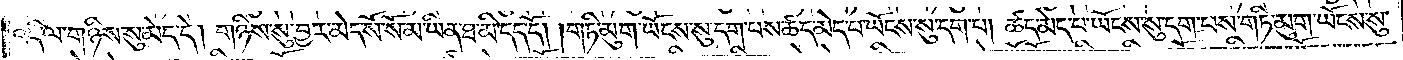འདི་ལ་གཉིས་སུ་མེད་དེ། གཉིས་སུ་བྱར་མེད་སོ་སོ་མ་ཡིན་ཐ་མི་དད་དོ། །གཏི་མུག་ཡོངས་སུ་དག་པས་ཚད་མེད་པ་ཡོངས་སུ་དག་པ། ཚད་མེད་པ་ཡོངས་སུ་དག་པས་གཏི་མུག་ཡོངས་སུ་
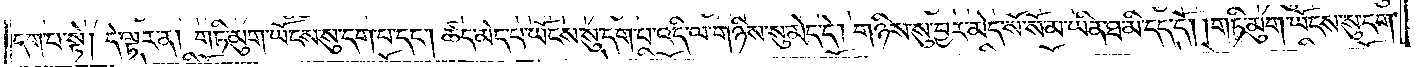དག་པ་སྟེ། དེ་ལྟར་ན། གཏི་མུག་ཡོངས་སུ་དག་པ་དང༌། ཚད་མེད་པ་ཡོངས་སུ་དག་པ་འདི་ལ་གཉིས་སུ་མེད་དེ། གཉིས་སུ་བྱར་མེད་སོ་སོ་མ་ཡིན་ཐ་མི་དད་དོ། །གཏི་མུག་ཡོངས་སུ་དག་
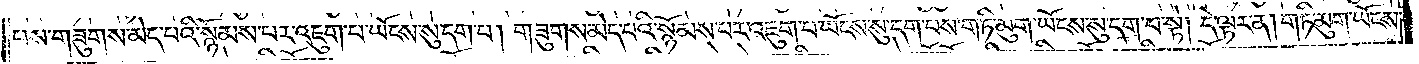པས་གཟུགས་མེད་པའི་སྙོམས་པར་འཇུག་པ་ཡོངས་སུ་དག་པ། གཟུགས་མེད་པའི་སྙོམས་པར་འཇུག་པ་ཡོངས་སུ་དག་པས་གཏི་མུག་ཡོངས་སུ་དག་པ་སྟེ། དེ་ལྟར་ན། གཏི་མུག་ཡོངས་
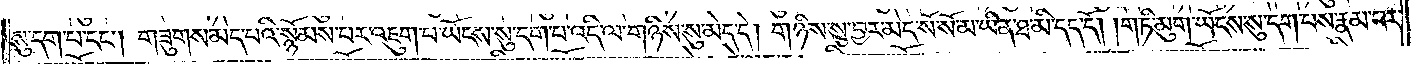སུ་དག་པ་དང༌། གཟུགས་མེད་པའི་སྙོམས་པར་འཇུག་པ་ཡོངས་སུ་དག་པ་འདི་ལ་གཉིས་སུ་མེད་དེ། གཉིས་སུ་བྱར་མེད་སོ་སོ་མ་ཡིན་ཐ་མི་དད་དོ། །གཏི་མུག་ཡོངས་སུ་དག་པས་རྣམ་པར་
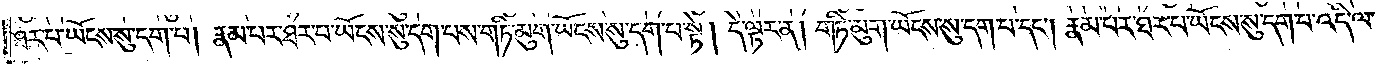ཐར་པ་ཡོངས་སུ་དག་པ། རྣམ་པར་ཐར་པ་ཡོངས་སུ་དག་པས་གཏི་མུག་ཡོངས་སུ་དག་པ་སྟེ། དེ་ལྟར་ན། གཏི་མུག་ཡོངས་སུ་དག་པ་དང༌། རྣམ་པར་ཐར་པ་ཡོངས་སུ་དག་པ་འདི་ལ་
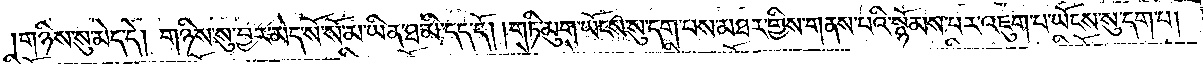གཉིས་སུ་མེད་དེ། གཉིས་སུ་བྱར་མེད་སོ་སོ་མ་ཡིན་ཐ་མི་དད་དོ། །གཏི་མུག་ཡོངས་སུ་དག་པས་མཐར་གྱིས་གནས་པའི་སྙོམས་པར་འཇུག་པ་ཡོངས་སུ་དག་པ།
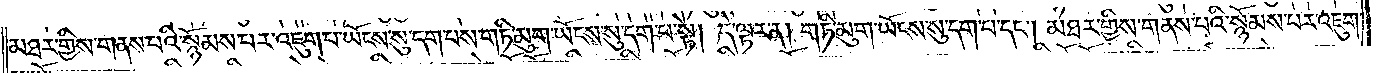མཐར་གྱིས་གནས་པའི་སྙོམས་པར་འཇུག་པ་ཡོངས་སུ་དག་པས་གཏི་མུག་ཡོངས་སུ་དག་པ་སྟེ། དེ་ལྟར་ན། གཏི་མུག་ཡོངས་སུ་དག་པ་དང༌། མཐར་གྱིས་གནས་པའི་སྙོམས་པར་འཇུག་
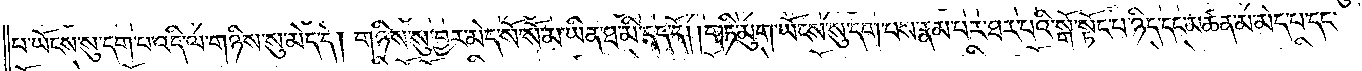པ་ཡོངས་སུ་དག་པ་འདི་ལ་གཉིས་སུ་མེད་དེ། གཉིས་སུ་བྱར་མེད་སོ་སོ་མ་ཡིན་ཐ་མི་དད་དོ། །གཏི་མུག་ཡོངས་སུ་དག་པས་རྣམ་པར་ཐར་པའི་སྒོ་སྟོང་པ་ཉིད་དང་མཚན་མ་མེད་པ་དང༌།
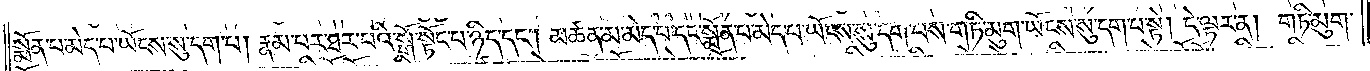སྨོན་པ་མེད་པ་ཡོངས་སུ་དག་པ། རྣམ་པར་ཐར་པའི་སྒོ་སྟོང་པ་ཉིད་དང༌། མཚན་མ་མེད་པ་དང་སྨོན་པ་མེད་པ་ཡོངས་སུ་དག་པས་གཏི་མུག་ཡོངས་སུ་དག་པ་སྟེ། དེ་ལྟར་ན། གཏི་མུག་
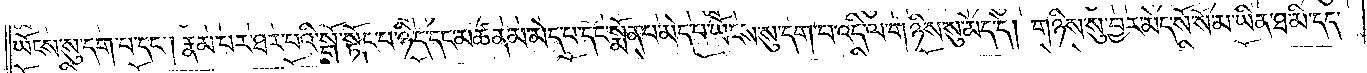ཡོངས་སུ་དག་པ་དང༌། རྣམ་པར་ཐར་པའི་སྒོ་སྟོང་པ་ཉིད་དང་མཚན་མ་མེད་པ་དང་སྨོན་པ་མེད་པ་ཡོངས་སུ་དག་པ་འདི་ལ་གཉིས་སུ་མེད་དེ། གཉིས་སུ་བྱར་མེད་སོ་སོ་མ་ཡིན་ཐ་མི་དད་
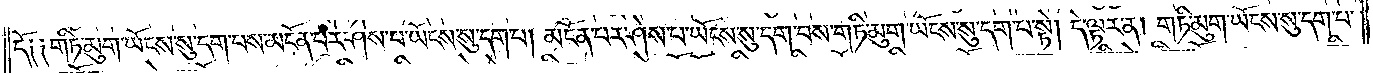དོ༑ ༑གཏི་མུག་ཡོངས་སུ་དག་པས་མངོན་པར་ཤེས་པ་ཡོངས་སུ་དག་པ། མངོན་པར་ཤེས་པ་ཡོངས་སུ་དག་པས་གཏི་མུག་ཡོངས་སུ་དག་པ་སྟེ། དེ་ལྟར་ན། གཏི་མུག་ཡོངས་སུ་དག་པ་
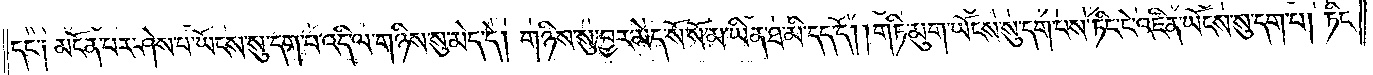དང་༑ མངོན་པར་ཤེས་པ་ཡོངས་སུ་དག་པ་འདི་ལ་གཉིས་སུ་མེད་དེ། གཉིས་སུ་བྱར་མེད་སོ་སོ་མ་ཡིན་ཐ་མི་དད་དོ། །གཏི་མུག་ཡོངས་སུ་དག་པས་ཏིང་ངེ་འཛིན་ཡོངས་སུ་དག་པ། ཏིང་
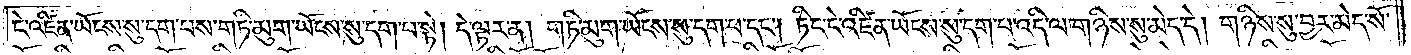ངེ་འཛིན་ཡོངས་སུ་དག་པས་གཏི་མུག་ཡོངས་སུ་དག་པ་སྟེ། དེ་ལྟར་ན། གཏི་མུག་ཡོངས་སུ་དག་པ་དང༌། ཏིང་ངེ་འཛིན་ཡོངས་སུ་དག་པ་འདི་ལ་གཉིས་སུ་མེད་དེ། གཉིས་སུ་བྱར་མེད་སོ་
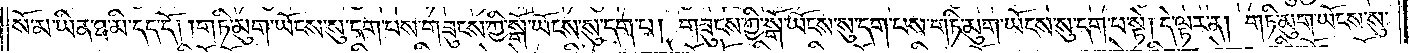སོ་མ་ཡིན་ཐ་མི་དད་དོ། །གཏི་མུག་ཡོངས་སུ་དག་པས་གཟུངས་ཀྱི་སྒོ་ཡོངས་སུ་དག་པ། གཟུངས་ཀྱི་སྒོ་ཡོངས་སུ་དག་པས་གཏི་མུག་ཡོངས་སུ་དག་པ་སྟེ། དེ་ལྟར་ན། གཏི་མུག་ཡོངས་སུ་
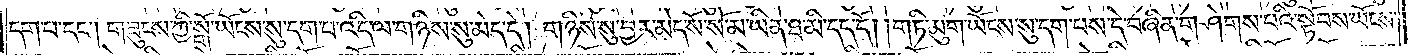དག་པ་དང༌། གཟུངས་ཀྱི་སྒོ་ཡོངས་སུ་དག་པ་འདི་ལ་གཉིས་སུ་མེད་དེ། གཉིས་སུ་བྱར་མེད་སོ་སོ་མ་ཡིན་ཐ་མི་དད་དོ། །གཏི་མུག་ཡོངས་སུ་དག་པས་དེ་བཞིན་གཤེགས་པའི་སྟོབས་ཡོངས་
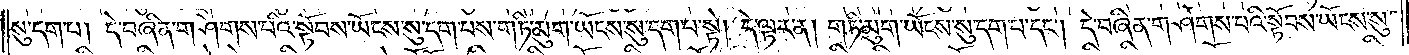སུ་དག་པ། དེ་བཞིན་གཤེགས་པའི་སྟོབས་ཡོངས་སུ་དག་པས་གཏི་མུག་ཡོངས་སུ་དག་པ་སྟེ། དེ་ལྟར་ན། གཏི་མུག་ཡོངས་སུ་དག་པ་དང༌། དེ་བཞིན་གཤེགས་པའི་སྟོབས་ཡོངས་སུ་
